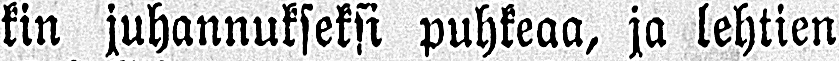kin juhannukseksi puhkeaa, ja lehtien
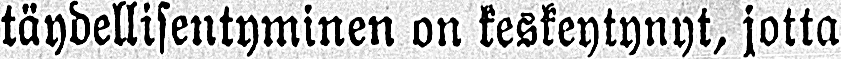täydellisentyminen on keskeytynyt, jotta
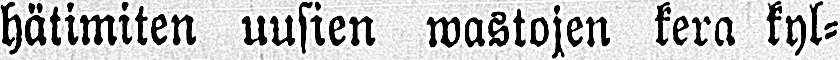hätimiten uusien wastojen kera kyl-
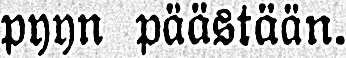pyyn päästään.
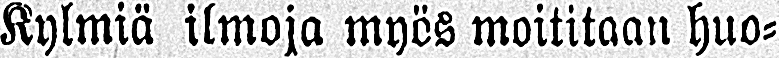Kylmiä ilmoja myös moititaan huo-
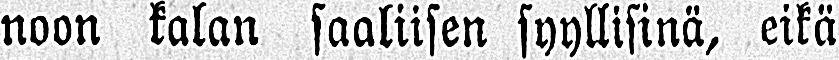noon kalan saaliisen syyllisinä, eikä
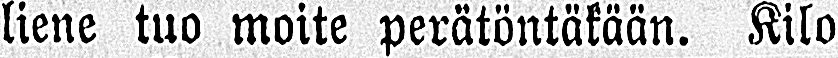liene tuo moite perätöntäkään. Kilo
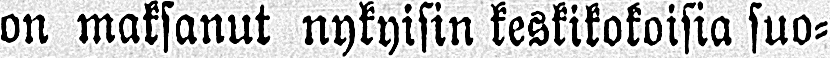on maksanut nykyisin keskikokoisia suo-
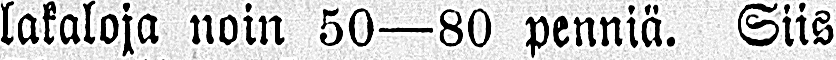lakaloja noin 50—80 penniä. Siis
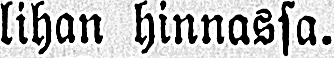lihan hinnassa.
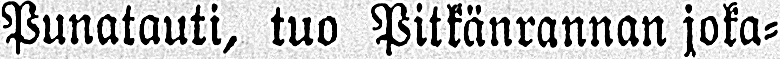Punatauti, tuo Pitkänrannan joka-
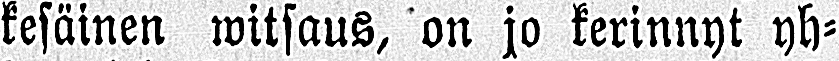kesäinen witsaus, on jo kerinnyt yh-
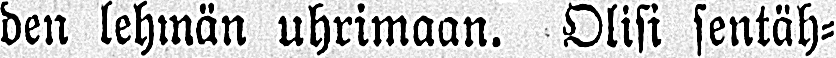den lehmän uhrimaan. Olisi sentäh-
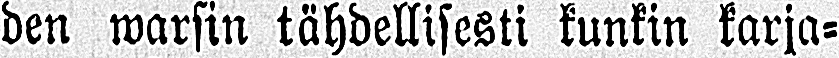den warsin tähdellisesti kunkin karja-
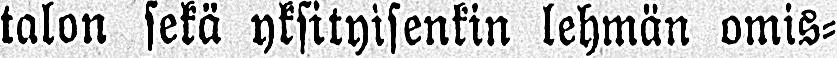talon sekä yksityisenkin lehmän omis-
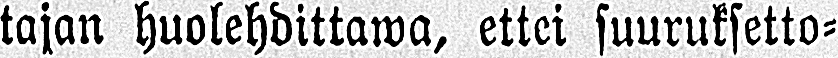tajan huolehdittawa, ettei suuruksetto-
